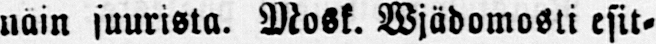näin suurista. Mosk. Wjädomosti esit-
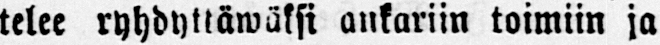telee ryhdyttäwäksi ankariin toimiin ja
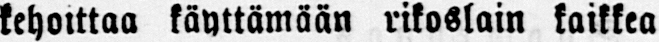kehoittaa käyttämään rikoslain kaikkea
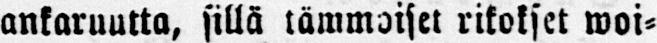ankaruutta, sillä tämmöiset rikokset woi-
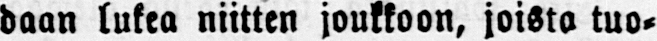daan lukea niitten joukkoon, joista tuo-
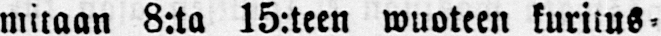mitaan 8:ta 15:teen wuoteen kuritus-
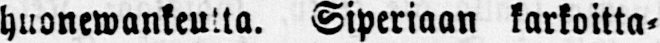huonewankeutta. Siperiaan karkoitta-
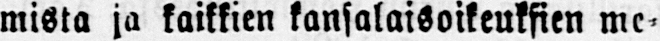mista ja kaikkien kansalaisoikeuksien me-
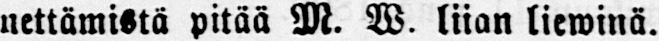nettämistä pitää M. W. liian liewinä.
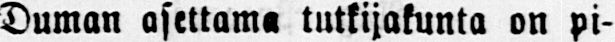Duman asettama tutkijakunta on pi-
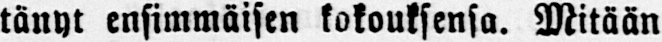tänyt ensimmäisen kokouksensa. Mitään
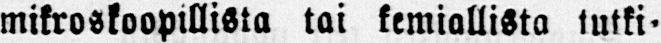mikroskoopillista tai kemiallista tutki-
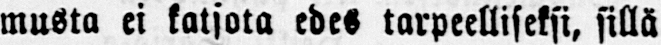musta ei katsota edes tarpeelliseksi, sillä
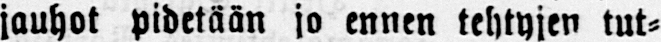jauhot pidetään jo ennen tehtyjen tut-
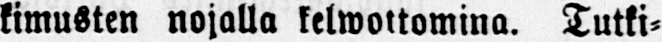kimusten nojalla kelwottomina. Tutki-
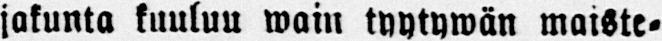jakunta kuuluu wain tyytywän maiste-
